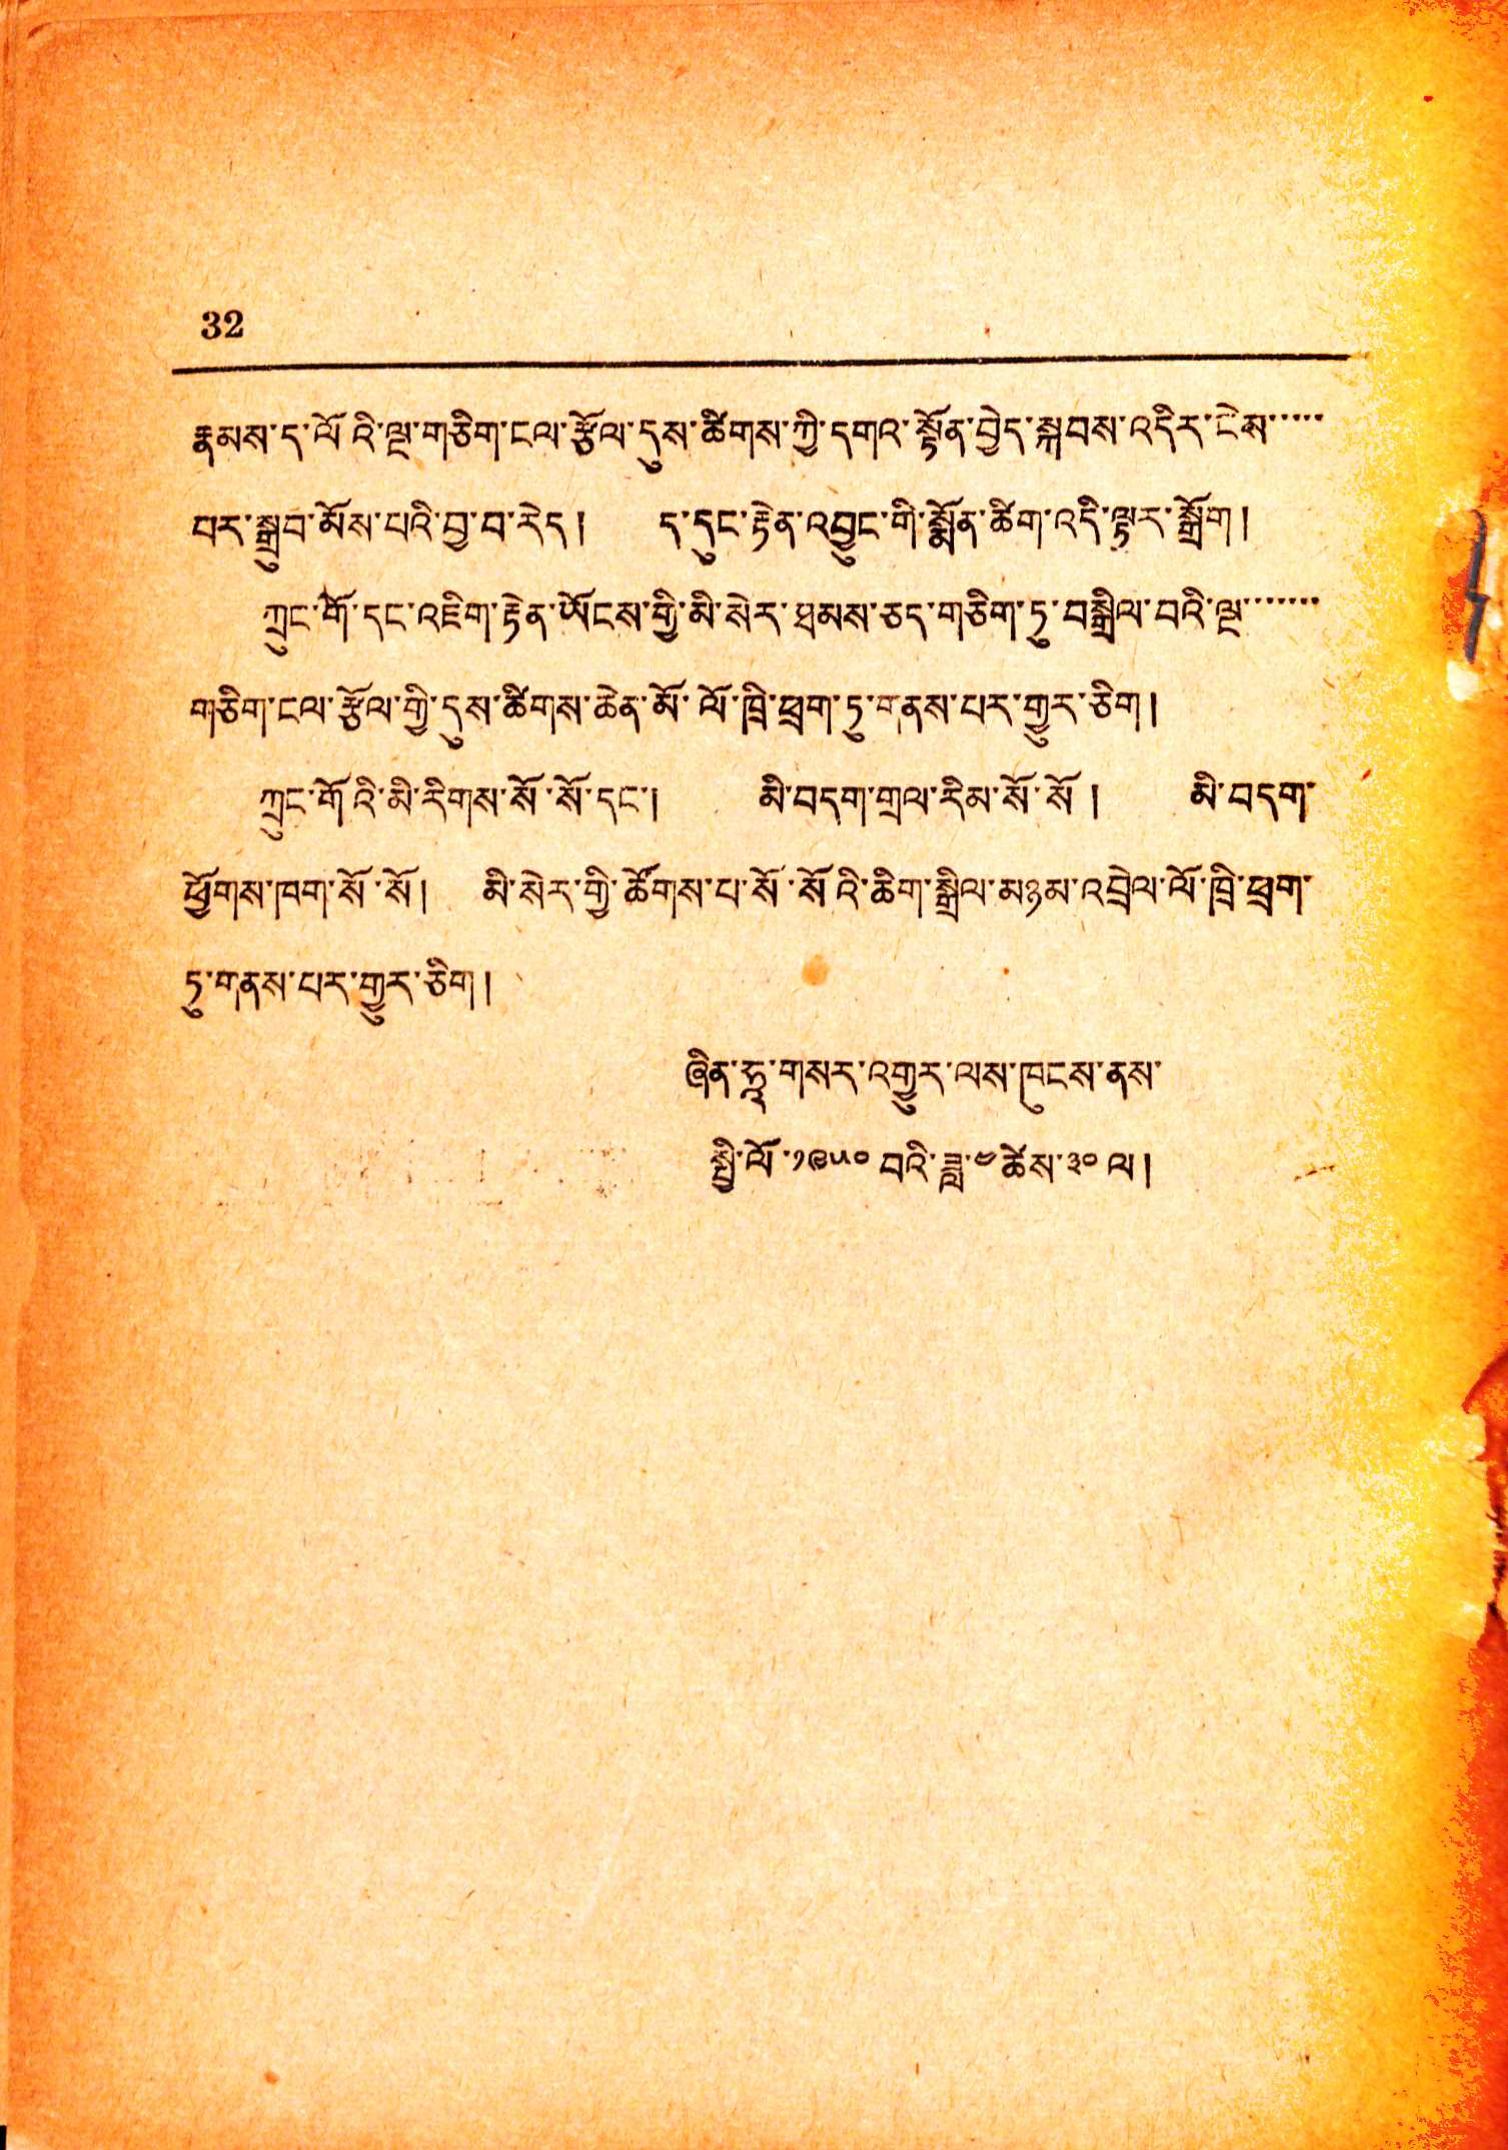32
རྣམས་ད་ལོའི་ལྔ་གཅིག་ངལ་རྩོལ་དུས་ཚིགས་ཀྱི་དགའ་སྟོན་བྱེད་སྐབས་འདིར་ངེས་་་་་
བར་སྒྲུབ་མོས་པའི་བྱ་བ་རེད། ད་དུང་རྟེན་འབྱུང་གི་སྨོན་ཚིག་འདི་ལྟར་སྒྲོག།
ཀྲུང་གོ་དང་འཇིག་རྟེན་ཡོངས་གྱི་མི་སེར་ཐམས་ཅད་གཅིག་ཏུ་བསྒྲིལ་བའི་ལྔ་་་་་་་
གཅིག་ངལ་རྩོལ་གྱི་དུས་ཚིགས་ཆེན་མོ་ལོ་ཁྲི་ཕྲག་ཏུ་གནས་པར་གྱུར་ཅིག།
ཀྲུང་གོའི་མི་རིགས་སོ་སོ་དང་། མི་བདག་གྲལ་རིམ་སོ་སོ། མི་བདག་
ཕྱོགས་ཁག་སོ་སོ། མི་སེར་གྱི་ཚོགས་པ་སོ་སོའི་ཆིག་སྒྲིལ་མཉམ་འབྲེལ་ལོ་ཁྲི་ཕྲག་
ཏུ་གནས་པར་གྱུར་ཅིག།
ཞིན་ཧཱ་གསར་འགྱུར་ལས་ཁུངས་ནས་
སྤྱི་ལོ་༡༩༥༠ བའི་ཟླ་༤ཚེས་༣༠ ལ།
